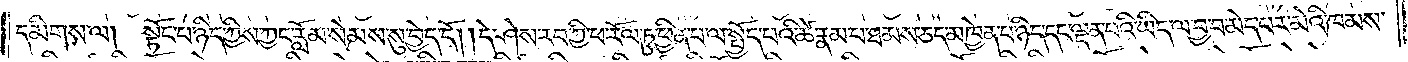དམིགས་ལ། སྟོང་པ་ཉིད་ཀྱང་རློམ་སེམས་སུ་བྱེད་དོ། །དེ་ཤེས་རབ་ཀྱི་ཕ་རོལ་ཏུ་ཕྱིན་པ་ལ་སྤྱོད་པའི་ཚེ་རྣམ་པ་ཐམས་ཅད་མཁྱེན་པ་ཉིད་དང་ལྡན་པའི་ཡིད་ལ་བྱ་བ་མེད་པར་མེའི་ཁམས་
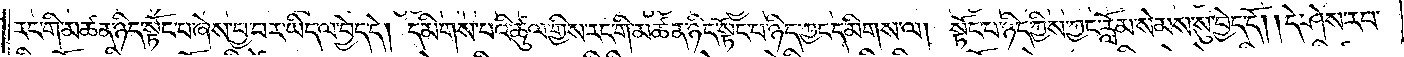རང་གི་མཚན་ཉིད་སྟོང་པ་ཞེས་བྱ་བར་ཡིད་ལ་བྱེད་དེ། དམིགས་པའི་ཚུལ་གྱིས་རང་གི་མཚན་ཉིད་སྟོང་པ་ཉིད་ཀྱང་དམིགས་ལ། སྟོང་པ་ཉིད་ཀྱིས་ཀྱང་རློམ་སེམས་སུ་བྱེད་དོ། །དེ་ཤེས་རབ་
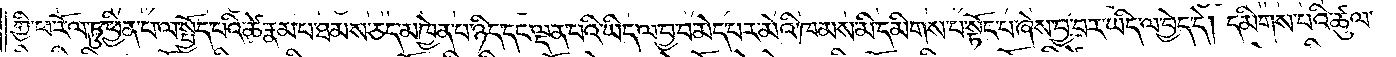ཀྱི་ཕ་རོལ་ཏུ་ཕྱིན་པ་ལ་སྤྱོད་པའི་ཚེ་རྣམ་པ་ཐམས་ཅད་མཁྱེན་པ་ཉིད་དང་ལྡན་པའི་ཡིད་ལ་བྱ་བ་མེད་པར་མེའི་ཁམས་མི་དམིགས་པ་སྟོང་པ་ཞེས་བྱ་བར་ཡིད་ལ་བྱེད་དེ། དམིགས་པའི་ཚུལ་
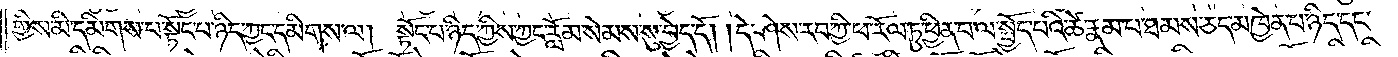གྱིས་མི་དམིགས་པ་སྟོང་པ་ཉིད་ཀྱང་དམིགས་ལ། སྟོང་པ་ཉིད་ཀྱིས་ཀྱང་རློམ་སེམས་སུ་བྱེད་དོ། །དེ་ཤེས་རབ་ཀྱི་ཕ་རོལ་ཏུ་ཕྱིན་པ་ལ་སྤྱོད་པའི་ཚེ་རྣམ་པ་ཐམས་ཅད་མཁྱེན་པ་ཉིད་དང་
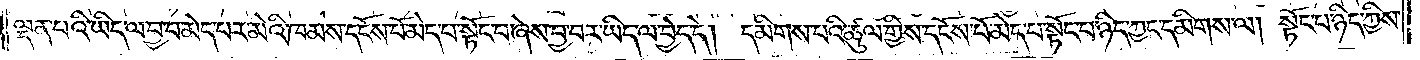ལྡན་པའི་ཡིད་ལ་བྱ་བ་མེད་པར་མེའི་ཁམས་དངོས་པོ་མེད་པ་སྟོང་པ་ཞེས་བྱ་བར་ཡིད་ལ་བྱེད་དེ། དམིགས་པའི་ཚུལ་གྱིས་དངོས་པོ་མེད་པ་སྟོང་པ་ཉིད་ཀྱང་དམིགས་ལ། སྟོང་པ་ཉིད་ཀྱིས་
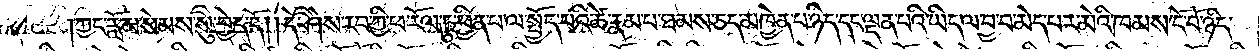ཀྱང་རློམ་སེམས་སུ་བྱེད་དོ། །དེ་ཤེས་རབ་ཀྱི་ཕ་རོལ་ཏུ་ཕྱིན་པ་ལ་སྤྱོད་པའི་ཚེ་རྣམ་པ་ཐམས་ཅད་མཁྱེན་པ་ཉིད་དང་ལྡན་པའི་ཡིད་ལ་བྱ་བ་མེད་པར་མེའི་ཁམས་ངོ་བོ་ཉིད་
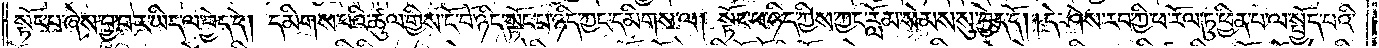སྟོང་པ་ཞེས་བྱ་བར་ཡིད་ལ་བྱེད་དེ། དམིགས་པའི་ཚུལ་གྱིས་ངོ་བོ་ཉིད་སྟོང་པ་ཉིད་ཀྱང་དམིགས་ལ། སྟོང་པ་ཉིད་ཀྱིས་ཀྱང་རློམ་སེམས་སུ་བྱེད་དེ། །དེ་ཤེས་རབ་ཀྱི་ཕ་རོལ་ཏུ་ཕྱིན་པ་ལ་སྤྱོད་པའི་
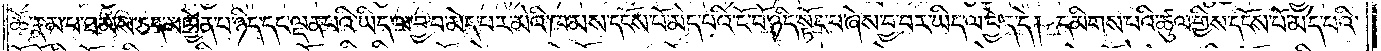ཚེ་རྣམ་པ་ཐམས་ཅད་མཁྱེན་པ་ཉིད་དང་ལྡན་པའི་ཡིད་ལ་བྱ་བ་མེད་པར་མེའི་ཁམས་དངོས་པོ་མེད་པའི་ངོ་བོ་ཉིད་སྟོང་པ་ཞེས་བྱ་བར་ཡིད་ལ་བྱེད་དེ། དམིགས་པའི་ཚུལ་གྱིས་དངོས་པོ་མེད་པའི་
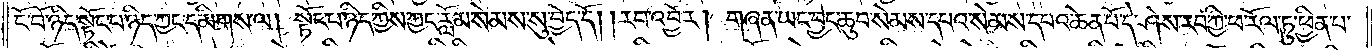ངོ་བོ་ཉིད་སྟོང་པ་ཉིད་ཀྱང་དམིགས་ལ། སྟོང་པ་ཉིད་ཀྱིས་ཀྱང་རློམ་སེམས་སུ་བྱེད་དོ། །རབ་འབྱོར། གཞན་ཡང་བྱང་ཆུབ་སེམས་དཔའ་སེམས་དཔའ་ཆེན་པོ་དེ་ཤེས་རབ་ཀྱི་ཕ་རོལ་ཏུ་ཕྱིན་པ་
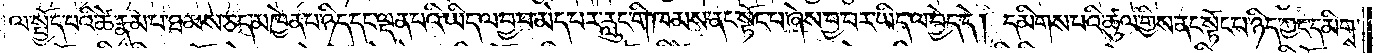ལ་སྤྱོད་པའི་ཚེ་རྣམ་པ་ཐམས་ཅད་མཁྱེན་པ་ཉིད་དང་ལྡན་པའི་ཡིད་ལ་བྱ་བ་མེད་པར་རླུང་གི་ཁམས་ནང་སྟོང་པ་ཞེས་བྱ་བར་ཡིད་ལ་བྱེད་དེ། དམིགས་པའི་ཚུལ་གྱིས་ནང་སྟོང་པ་ཉིད་ཀྱང་དམིགས་
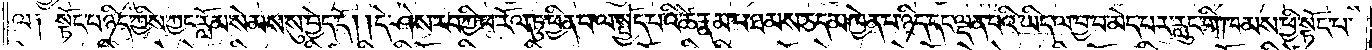ལ༑ སྟོང་པ་ཉིད་ཀྱིས་ཀྱང་རློམ་སེམས་སུ་བྱེད་དོ། །དེ་ཤེས་རབ་ཀྱི་ཕ་རོལ་ཏུ་ཕྱིན་པ་ལ་སྤྱོད་པའི་ཚེ་རྣམ་པ་ཐམས་ཅད་མཁྱེན་པ་ཉིད་དང་ལྡན་པའི་ཡིད་ལ་བྱ་བ་མེད་པར་རླུང་གི་ཁམས་ཕྱི་སྟོང་པ་
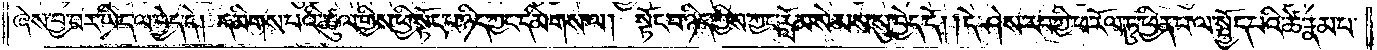ཞེས་བྱ་བར་ཡིད་ལ་བྱེད་དེ། དམིགས་པའི་ཚུལ་གྱིས་ཕྱི་སྟོང་པ་ཉིད་ཀྱང་དམིགས་ལ། སྟོང་པ་ཉིད་ཀྱིས་ཀྱང་རློམ་སེམས་སུ་བྱེད་དོ། །དེ་ཤེས་རབ་ཀྱི་ཕ་རོལ་ཏུ་ཕྱིན་པ་ལ་སྤྱོད་པའི་ཚེ་རྣམ་པ་
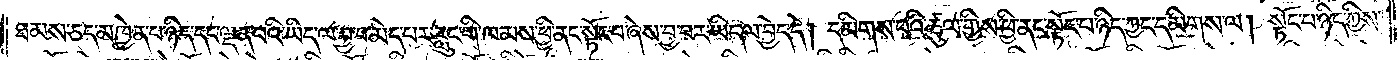ཐམས་ཅད་མཁྱེན་པ་ཉིད་དང་ལྡན་པའི་ཡིད་ལ་བྱ་བ་མེད་པར་རླུང་གི་ཁམས་ཕྱི་ནང་སྟོང་པ་ཞེས་བྱ་བར་ཡིད་ལ་བྱེད་དེ། དམིགས་པའི་ཚུལ་གྱིས་ཕྱི་ནང་སྟོང་པ་ཉིད་ཀྱང་དམིགས་ལ། སྟོང་པ་ཉིད་ཀྱིས་
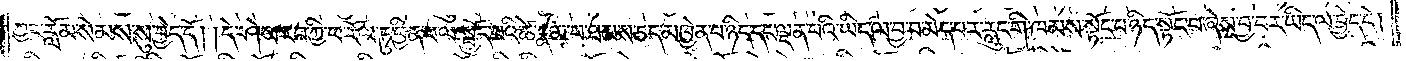ཀྱང་རློམ་སེམས་སུ་བྱེད་དོ། །དེ་ཤེས་རབ་ཀྱི་ཕ་རོལ་ཏུ་ཕྱིན་པ་ལ་སྤྱོད་པའི་ཚེ་རྣམ་པ་ཐམས་ཅད་མཁྱེན་པ་ཉིད་དང་ལྡན་པའི་ཡིད་ལ་བྱ་བ་མེད་པར་རླུང་གི་ཁམས་སྟོང་པ་ཉིད་སྟོང་པ་ཞེས་བྱ་བར་ཡིད་ལ་བྱེད་དེ།
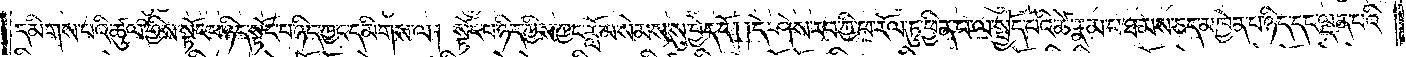དམིགས་པའི་ཚུལ་གྱིས་སྟོང་པ་ཉིད་སྟོང་པ་ཉིད་ཀྱང་དམིགས་ལ། སྟོང་པ་ཉིད་ཀྱིས་ཀྱང་རློམ་སེམས་སུ་བྱེད་དོ། །དེ་ཤེས་རབ་ཀྱི་ཕ་རོལ་ཏུ་ཕྱིན་པ་ལ་སྤྱོད་པའི་ཚེ་རྣམ་པ་ཐམས་ཅད་མཁྱེན་པ་ཉིད་དང་ལྡན་པའི་
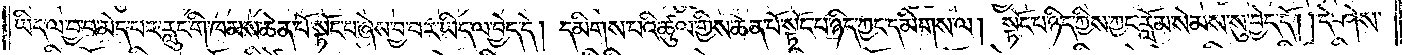ཡིད་ལ་བྱ་བ་མེད་པར་རླུང་གི་ཁམས་ཆེན་པོ་སྟོང་པ་ཞེས་བྱ་བར་ཡིད་ལ་བྱེད་དེ། དམིགས་པའི་ཚུལ་གྱིས་ཆེན་པོ་སྟོང་པ་ཉིད་ཀྱང་དམིགས་ལ། སྟོང་པ་ཉིད་ཀྱིས་ཀྱང་རློམ་སེམས་སུ་བྱེད་དོ། །དེ་ཤེས་
